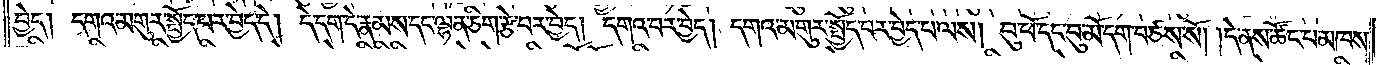བྱེད། དགའ་མགུར་སྤྱོད་པར་བྱེད་དེ། དེ་དག་དེ་རྣམས་དང་ལྷན་ཅིག་རྩེ་བར་བྱེད། དགའ་བར་བྱེད། དགའ་མགུར་སྤྱོད་པར་བྱེད་པ་ལས། བུ་ཕོ་དང་བུ་མོ་དག་བཙས་སོ། །དེ་ནས་ཚོང་པ་མཁས་
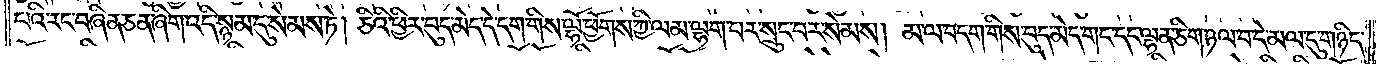པའི་རང་བཞིན་ཅན་ཞིག་འདི་སྙམ་དུ་སེམས་ཏེ། ཅིའི་ཕྱིར་བུད་མེད་དེ་དག་གིས་ལྷོ་ཕྱོགས་ཀྱི་ལམ་ལྷག་པར་སྲུང་བར་སེམས། མ་ལ་བདག་གིས་བུད་མེད་གང་དང་ལྷན་ཅིག་ཉལ་བ་དེ་མལ་དུ་གཉིད་
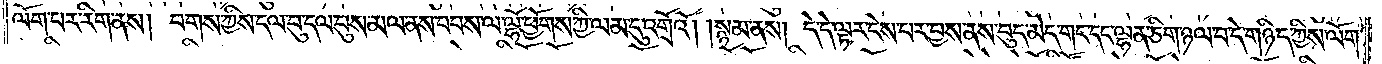ལོག་པར་རིག་ནས། བགས་ཀྱིས་དལ་བུ་དལ་བུས་མལ་ནས་བབས་ལ་ལྷོ་ཕྱོགས་ཀྱི་ལམ་དུ་འགྲོའོ། །སྙམ་ནས། དེ་དེ་ལྟར་ངེས་པར་བྱས་ནས་བུད་མེད་གང་དང་ལྷན་ཅིག་ཉལ་བ་དེ་གཉིད་ཀྱིས་ལོག་
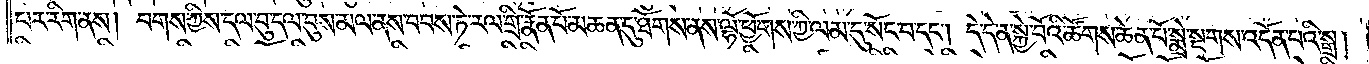པར་རིག་ནས། བགས་ཀྱིས་དལ་བུ་དལ་བུས་མལ་ནས་བབས་ཏེ་རལ་གྲི་རྣོན་པོ་མཆན་དུ་ཐོགས་ནས་ལྷོ་ཕྱོགས་ཀྱི་ལམ་དུ་སོང་བ་དང༌། དེ་དེ་ན་སྐྱེ་བོའི་ཚོགས་ཆེན་པོ་སྨྲེ་སྔགས་འདོན་པའི་སྒྲ།
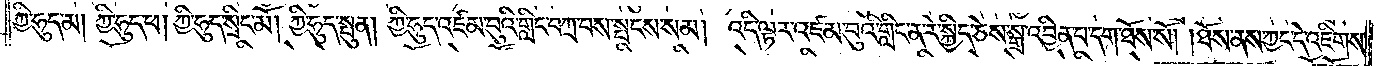ཀྱི་ཧུད་མ། ཀྱི་ཧུད་ཕ། ཀྱི་ཧུད་སྲིང་མོ། ཀྱི་ཧུད་སྤུན། ཀྱི་ཧུད་འཛམ་བུའི་གླིང་བཀྲ་བས་སྤངས་སམ། འདི་ལྟར་འཛམ་བུའི་གླིང་ན་རེ་སྐྱིད་ཅེས་སྒྲ་འབྱིན་པ་དག་ཐོས་སོ། །ཐོས་ནས་ཀྱང་དེ་འཇིགས་
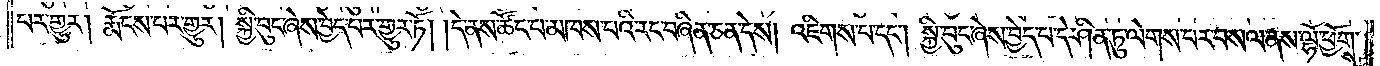པར་གྱུར། རྨོངས་པར་གྱུར། སྐྱི་བུང་ཞེས་བྱེད་པར་གྱུར་ཏོ། །དེ་ནས་ཚོང་བ་མཁས་པའི་རང་བཞིན་ཅན་དེས། འཇིགས་པ་དང༌། སྐྱི་བུང་ཞེས་བྱེད་པ་དེ་ཤིན་ཏུ་ལེགས་པར་བསལ་ནས་ལྷོ་ཕྱོགས་
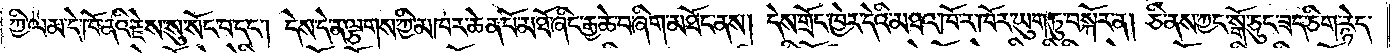ཀྱི་ལམ་དེ་ཁོ་ནའི་རྗེས་སུ་སོང་བ་དང༌། དེས་དེ་ན་ལྕགས་ཀྱི་མཁར་ཆེན་པོ་མཐོ་ཞིང་རྒྱ་ཆེ་བ་ཞིག་མཐོང་ནས། དེས་གྲོང་ཁྱེར་དེའི་མཐའ་ཁོ་ར་ཁོར་ཡུལ་ཏུ་བསྐོར་ན། ཅི་ནས་ཀྱང་སྒོ་ཅུང་ཟད་ཅིག་རྙེད་
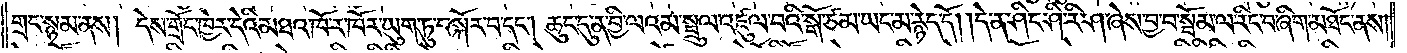གྲང་སྙམ་ནས། དེས་གྲོང་ཁྱེར་དེའི་མཐའ་ཁོ་ར་ཁོར་ཡུག་ཏུ་བསྐོར་བ་དང༌། ཆུང་དུ་ན་བྱི་ལའམ་སྤྲུལ་འཛུལ་པའི་སྒོ་ཙམ་ཡང་མ་རྙེད་དོ། །དེ་ན་ཤིང་ཤི་རི་ཤ་ཞེས་བྱ་བ་སྤོམ་ལ་རིང་བ་ཞིག་མཐོང་ནས།
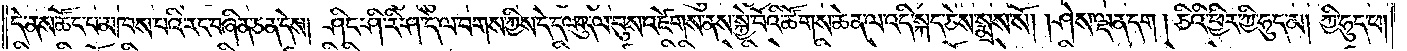དེ་ནས་ཚོང་པ་མཁས་པའི་རང་བཞིན་ཅན་དེས། ཤིང་ཤི་རི་ཤ་དེ་ལ་པགས་ཀྱིས་དེ་དལ་བུ་དལ་བུས་འཛེགས་ནས་སྐྱེ་བོའི་ཚོགས་ཆེན་ལ་འདི་སྐད་ཅེས་སྨྲས་སོ། །ཤེས་ལྡན་དག །ཅིའི་ཕྱིར་ཀྱི་ཧུད་མ། ཀྱི་ཧུད་ཕ།
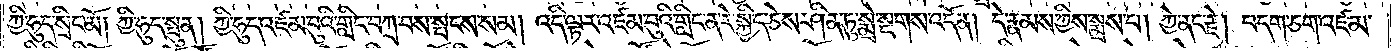ཀྱི་ཧུད་སྲིང་མོ། ཀྱི་ཧུད་སྤུན། ཀྱི་ཧུད་འཛམ་བུའི་གླིང་བཀྲ་བས་སྤངས་སམ། འདི་ལྟར་འཛམ་བུའི་གླིང་ན་རེ་སྐྱིད་ཅེས་ཤིན་ཏུ་སྨྲེ་སྔགས་འདོན། དེ་རྣམས་ཀྱིས་སྨྲས་པ། ཀྱེ་ནང་རྗེ། བདག་ཅག་འཛམ་
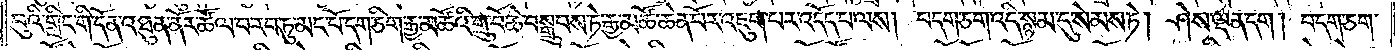བུའི་གླིང་གི་དོན་འཐུན་ནོར་ཚོལ་བ་རབ་ཏུ་མང་པོ་དག་ཅིག་རྒྱ་མཚོའི་གྲུ་བོ་ཆེ་བསྒྲུབས་ཏེ་རྒྱ་མཚོ་ཆེན་པོར་འཇུག་པར་འདོད་པ་ལས། བདག་ཅག་འདི་སྙམ་དུ་སེམས་ཏེ། ཤེས་ལྡན་དག །བདག་ཅག་
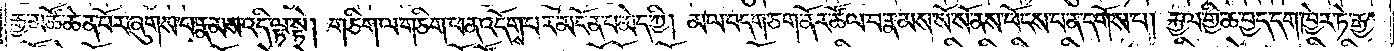རྒྱ་མཚོ་ཆེན་པོར་ཞུགས་པ་རྣམས་འདི་ལྟ་སྟེ། གཅིག་ལ་གཅིག་ཕན་འདོགས་པར་མངོན་པ་མེད་ཀྱི། མ་ལ་བདག་ཅག་ནོར་ཚོལ་བ་རྣམས་སོ་སོ་ནས་ཕོངས་པ་ན་དགོས་པ། རྐྱལ་གྱི་ཆ་བྱད་དག་ཁྱེར་ཏེ་རྒྱ་
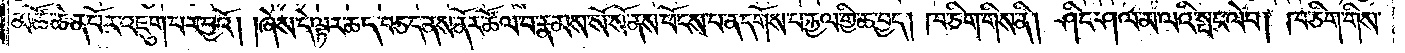མཚོ་ཆེན་པོར་འཇུག་པར་བྱའོ། །ཞེས་དེ་ལྟར་ཆད་བཅད་ནས་ནོར་ཚོལ་བ་རྣམས་སོ་སོ་ནས་ཕོངས་པ་ན་དགོས་པ་རྐྱལ་གྱི་ཆ་བྱད། ཁ་ཅིག་གིས་ནི། ཤིང་ཤལ་མ་ལའི་སྤང་ལེབ། ཁ་ཅིག་གིས་
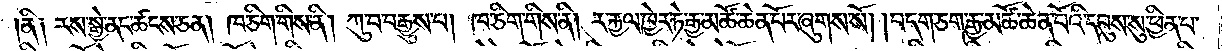།ནི༑ རས་སྒྱེ་ནང་ཚངས་ཅན། ཁ་ཅིག་གིས་ནི། ཀུ་བ་བརྒྱུས་པ། ཁ་ཅིག་གིས་ནི། ར་རྐྱལ་ཁྱེར་ཏེ་རྒྱ་མཚོ་ཆེན་པོར་ཞུགས་སོ། །བདག་ཅག་རྒྱ་མཚོ་ཆེན་པོའི་དབུས་སུ་ཕྱིན་པ་
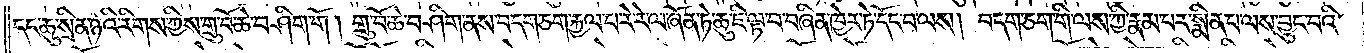དང་ཆུ་སྲིན་ཉའི་རིགས་ཀྱིས་གྲུ་པོ་ཆེ་བཤིག་གོ །གྲུ་བོ་ཆེ་བཤིག་ནས་བདག་ཅག་རྐྱལ་པ་རེ་རེ་ལ་ཞོན་ཏེ་ཆུ་ཇི་ལྟ་བ་བཞིན་ཁྱེར་ཏེ་དོང་བ་ལས། བདག་ཅག་གི་ལས་ཀྱི་རྣམ་པར་སྨིན་པ་ལས་བྱུང་བའི་
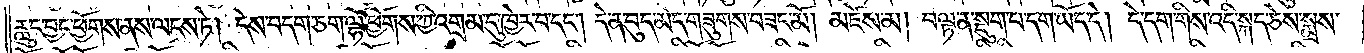རླུང་བྱང་ཕྱོགས་ནས་ལངས་ཏེ། དེས་བདག་ཅག་ལྷོ་ཕྱོགས་ཀྱི་འགྲམ་དུ་ཁྱེར་བ་དང༌། དེ་ན་བུད་མེད་གཟུགས་བཟང་མོ། མཛེས་མ། བལྟ་ན་སྡུག་པ་དག་ཡོད་དེ། དེ་དག་གིས་འདི་སྐད་ཅེས་སྨྲས་
